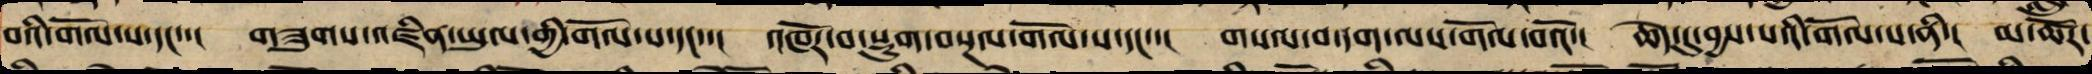བའི་གོལ་ས་དང་་། གཟུང་འཛིན་ཡུལ་གྱི་གོལ་ས་དང་་། འཁོར་བ་སྡུག་བསྔལ་གོལ་ས་དང་་། གསལ་བ་དག་ལས་གོལ་བའོ་། ཆེད་དུ་བྱས་པའི་གོལ་ས་ནི་། མ་ཚོར་
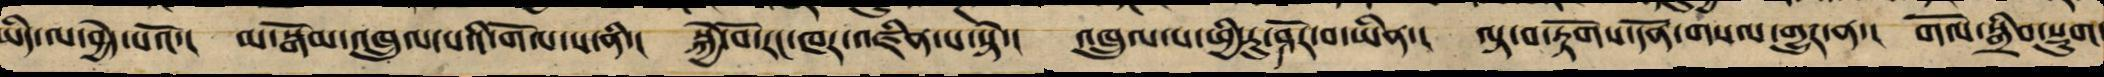ཡིད་ལ་བྱེད་པའོ་། མ་སྒོམ་འཁྲུལ་པའི་གོལ་ས་ནི་། སྐྱེ་བོ་རང་ཁར་འཛིན་པ་སྟེ་། འཁྲུལ་པ་ཕྱི་རུ་ཤོར་བ་ཡིན་། ལྟ་བ་རྟོགས་དོན་གསལ་གྱུར་ན་། གོལ་སྒྲིབ་སྡུག་
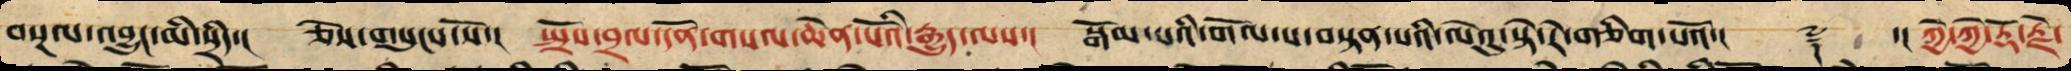བསྔལ་འབྱུང་མི་སྲིད་། ཅེས་གསུངས་སོ་། སྤྲོས་བྲལ་དོན་གསལ་ཆེན་པོའི་རྒྱུད་ལས་། སྒོམ་པའི་གོལ་ས་བསྟན་པའི་ལེའུ་སྟེ་རེ་གཅིག་པའོ་།། ༈ ་། ཀྱེ་ཀྱེ་རྡོ་རྗེ་
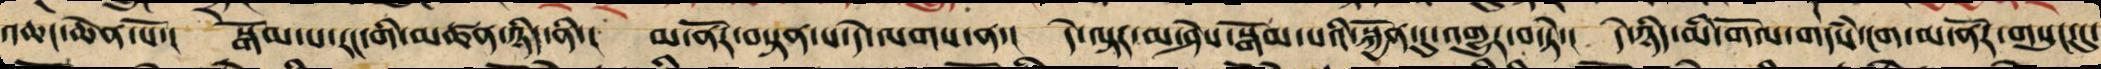འཆང་ཆེན་པོ་། སྒོམ་པ་རང་གི་མཚན་ཉིད་ནི་། མ་ནོར་བསྟན་པ་དེ་ལགས་ན་། དེ་ལྟར་མ་ཤེས་སྒོམ་པའི་སྐྱོན་དུ་འགྱུར་བ་ཏེ་། དེ་ཉིད་མི་གོལ་གདཾས་ངག་མ་ནོར་གསུང་དུ་
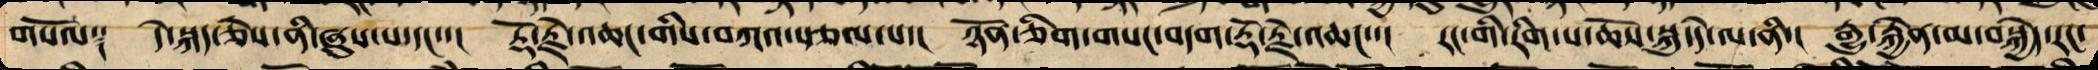གསོལ༑ དེ་སྐད་ཅེས་ནི་ཞུས་པ་དང་་། རྡོ་རྗེ་འཆང་གིས་བཀའ་སྩལ་པ་། ཉོན་ཅིག་གསང་བདག་རྡོ་རྗེ་འཆང་་། རང་གི་རིག་པ་ཆོས་སྐུ་དེ་ལ་ནི་། རྒྱུ་རྐྱེན་མ་བསྐྱེད་རང་
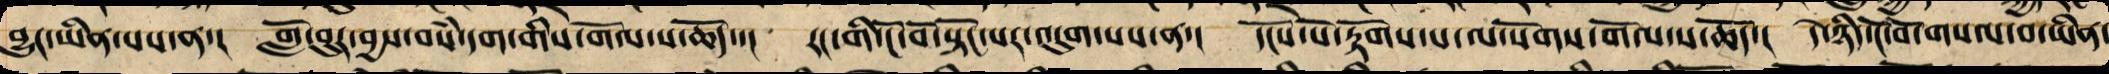བྱུང་ཡིན་པས་ན་། གློ་བུར་བྱས་བསཾ་དག་གིས་གོལ་ས་ཆོད་་། རང་གི་ངོ་བོ་སྟོང་པར་འདུག་པས་ན་། དངོས་པོ་རྟོགས་པ་ལ་སོགས་གོལ་ས་ཆོད་། དེ་ཉིད་ངོ་བོ་གསལ་བ་ཡིན་
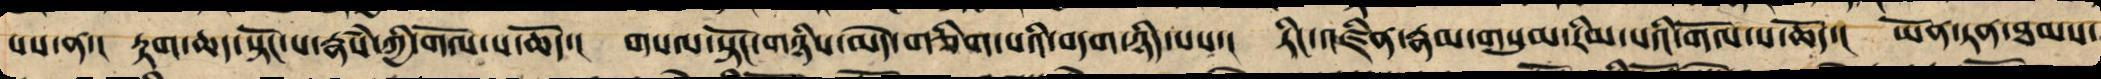པས་ན་། རྟག་ཆད་པ་སྟོང་པ་རྣཾས་ཀྱི་གོལ་ས་ཆོད་། གསལ་སྟོང་གཉིས་མེད་གཅིག་པའི་བདག་ཉིད་པས་། ཏིང་འཛིན་རྣམ་གསུམ་རིག་པའི་གོལ་ས་ཆོད་། ཡོན་ཏན་ཐམས་
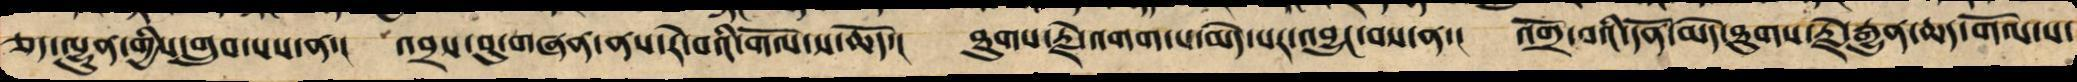ཅད་ལྷུན་གྱིས་གྲུབ་པས་ན་། འབྲས་བུ་གཞན་ནས་རེ་བའི་གོལ་ས་ཆོད་། ཐུགས་རྗེ་འགག་པ་མེད་པར་འབྱུང་བས་ན་། འགྲོ་བའི་དོན་མེད་ཐུགས་རྗེ་རྒྱུན་ཆད་གོལ་ས་
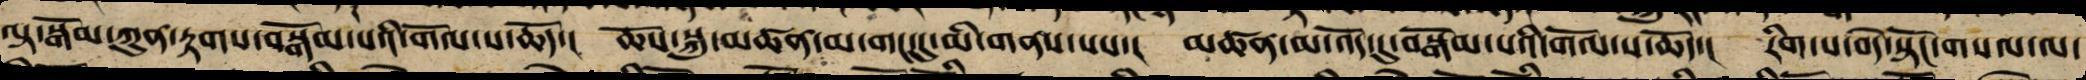ལྟ་སྒོམ་ཀུན་རྟགས་བསྒོམ་པའི་གོལ་ས་ཆོད་། ཆོས་སྐུ་མཚན་མ་གང་དུ་མི་གནས་པས་། མཚན་མ་འོད་དུ་བསྒོམ་པའི་གོལ་ས་ཆོད་། རིག་པ་བདེ་སྟོང་གསལ་ལ་
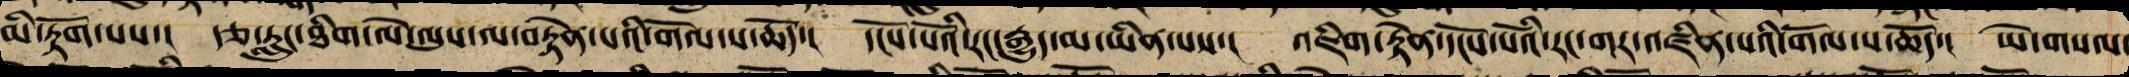མི་རྟོག་པས་། རྩ་རླུང་ཐིག་ལེ་ལུས་ལ་བརྟེན་པའི་གོལ་ས་ཆོད་། དངོས་པོ་རང་རྒྱུད་མ་ཡིན་པས་། འཇིག་རྟེན་དངོས་པོའི་རང་གར་འཛིན་པའི་གོལ་ས་ཆོད་། ཡེ་གསལ་
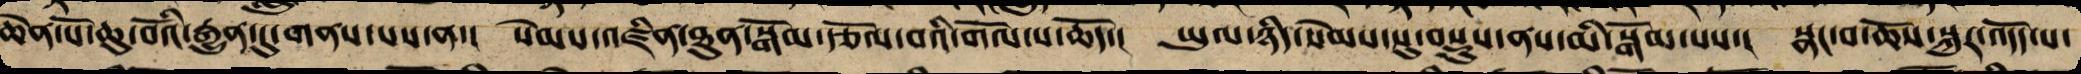ཆེན་པོ་ཆུ་བོའི་རྒྱུན་དུ་གནས་པས་ན་། སེམས་འཛིན་ཐུན་སྒོམ་རྩོལ་བའི་གོལ་ས་ཆོད་། ཡུལ་ཉིད་སེམས་སུ་བསྡུས་ནས་མི་སྒོམ་པས་། སྣང་བ་ཆོས་སྐུར་འདོད་པ་
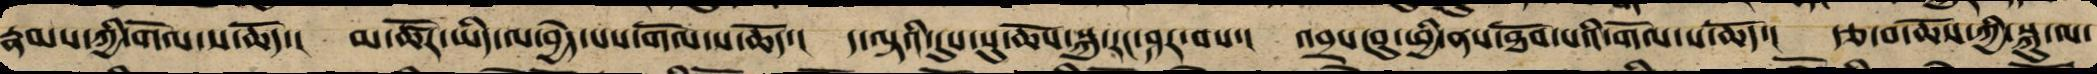རྣམས་ཀྱི་གོལ་ས་ཆོད་། མ་ཚོར་ཡིད་ལ་བྱེད་པས་གོལ་ས་ཆོད་། ད་ལྟའི་དུས་སུ་ཆོས་སྐུ་རང་ཤར་བས་། འབྲས་བུ་ཕྱི་ནས་ཐོབ་པའི་གོལ་ས་ཆོད་། རྩ་བ་ཆོས་ཀྱི་སྐུ་ལ་
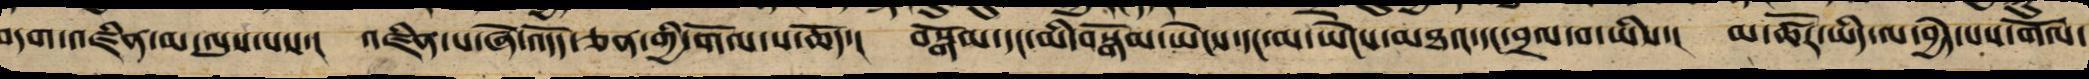བདག་འཛིན་མ་ལུས་པས་། འཛིན་པ་ཞེ་འདོད་ཅན་གྱི་གོལ་ས་ཆོད་། བསྒོམ་དང་མི་བསྒོམ་ཡེངས་དང་མ་ཡེངས་མཐའ་དང་བྲལ་བ་ཡིས་། མ་ཚོར་ཡིད་ལ་བྱེད་པའི་གོལ་
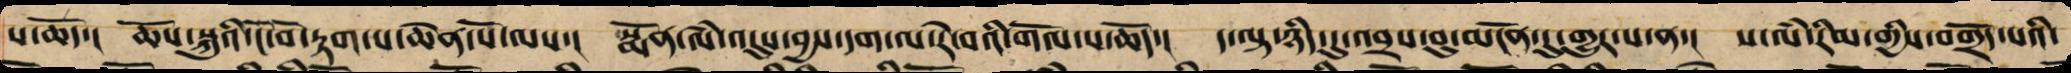ས་ཆོད་། ཆོས་སྐུའི་ངོ་བོ་རྟག་པ་ཆེན་པོ་ལས་། སྨོན་ལཾ་འདུས་བྱས་དག་ལ་རེ་བའི་གོལ་ས་ཆོད་། ད་ལྟ་ཉིད་དུ་འབྲས་བུ་མངོན་དུ་གྱུར་པ་ན་། ས་ལཾ་རིམ་གྱིས་བགྲོད་པའི་
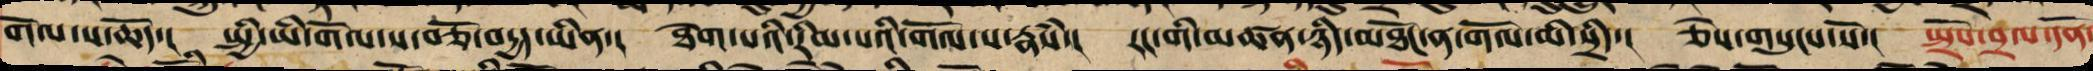གོལ་ས་ཆོད་། སྤྱི་ཡི་གོལ་ས་བཅོ་བདྱད་ཡིན་། ཐེག་པའི་རིམ་པའི་གོལ་ས་རྣཾས་། རང་གི་མཚན་ཉིད་མཐོང་ན་གོལ་མི་སྲིད་། ཅེས་གསུངས་སོ་། སྤྲོས་བྲལ་དོན་
